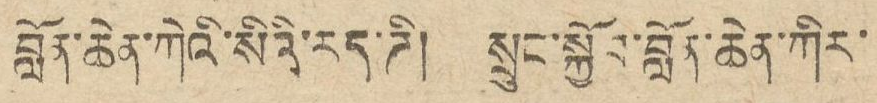བློན་ཆེན་ཀེའི་སིའི་རད་ཌི། སྲུང་སྐྱོབ་བློན་ཆེན་ཀིར་
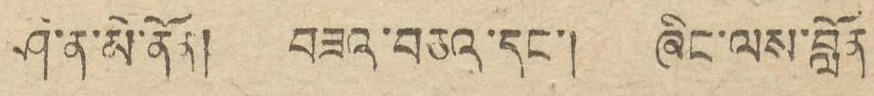ཤི་ན་མེ་ནོན། བཟའ་བཅའ་དང་། ཞིང་ལས་བློན
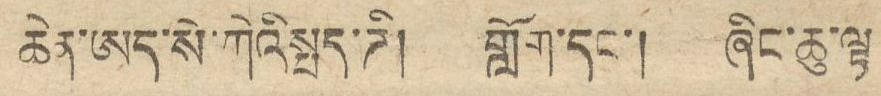ཆེན་ཨད་སེ་ཀེའིསྤད་ཌི། གློག་དང་། ཞིང་ཆུ་ལྟ
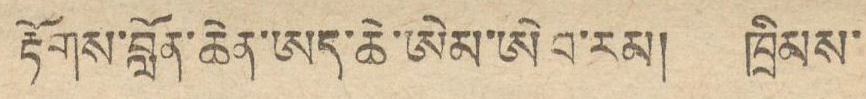རྟོགས་བློན་ཆེན་ཨད་ཆེ་ཨེམ་ཨེབ་རམ། ཁྲིམས་
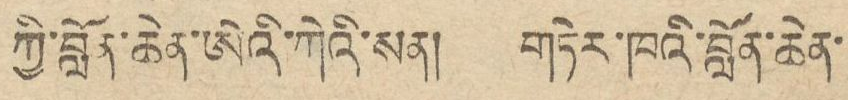ཀྱི་བློན་ཆེན་ཨེའི་ཀེའི་སན། གཏེར་ཁའི་བློན་ཆེན་
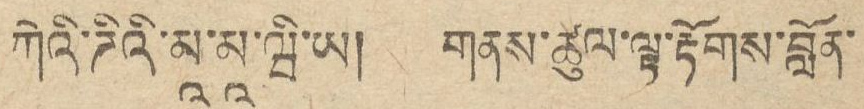ཀེའི་ཌིའི་མཱ་མ་ཝི་ཡ། གནས་ཚུལ་ལྟ་རྟོགས་བློན་
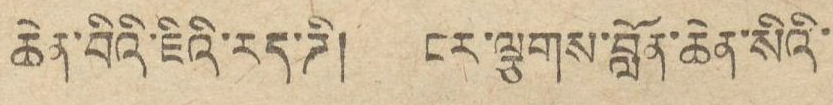ཆེན་བིའི་ཇིའི་རད་ཌི། ངར་ལྕགས་བློན་ཆེན་སིའི་
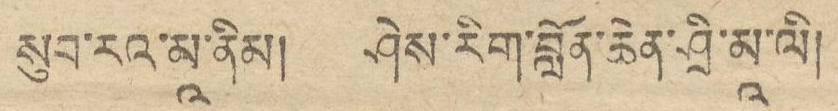སུབ་རའ་མཱ་ནིམ། ཤེས་རིག་བློན་ཆེན་ཤྲི་མཱ་ལི།
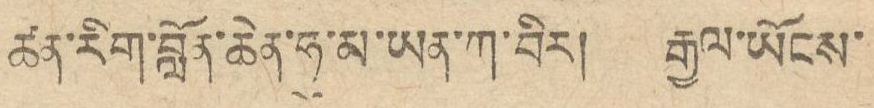ཚན་རིག་བློན་ཆེན་ཧུ་མ་ཡན་ཀ་བིར། རྒྱལ་ཡོངས་
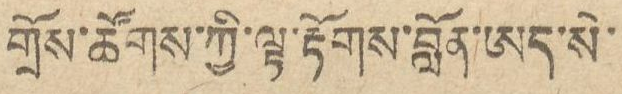གྲོས་ཚོགས་ཀྱི་ལྟ་རྟོགས་བློན་ཨད་སེ་
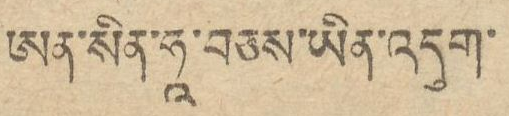ཨན་སིན་ཧཱ་བཅས་ཡིན་འདུག་
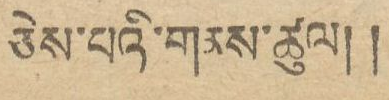ཅེས་པའི་གནས་ཚུལ། །
